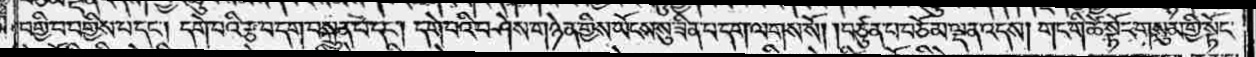བགྱི་བ་བགྱིས་པ་དང༌། དགེ་བའི་རྩ་བ་དག་བསྐྲུན་པ་དང༌། དགེ་བའི་བཤེས་གཉེན་གྱིས་ཡོངས་སུ་ཟིན་པ་དག་ལགས་སོ། །བཙུན་པ་བཅོམ་ལྡན་འདས། གང་གི་ཚེ་སྟོང་གསུམ་གྱི་སྟོང་
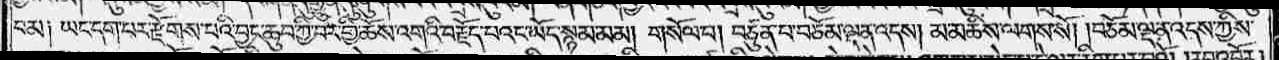བམ༑ ཡང་དག་པར་རྫོགས་པའི་བྱང་ཆུབ་ཀྱི་བར་གྱི་ཆོས་འགའི་བརྗོད་པའང་ཡོད་སྙམ་མམ། གསོལ་པ། བཙུན་པ་བཅོམ་ལྡན་འདས། མ་མཆིས་ལགས་སོ། །བཅོམ་ལྡན་འདས་ཀྱིས་
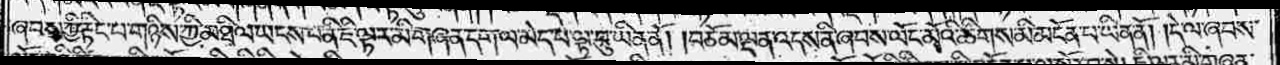ཞབས་ཀྱི་རྟིང་པ་གཉིས་ཀྱི་མཐིལ་ཡངས་པ་ནི་ཇི་ལྟར་མི་གཞན་དག་ལ་མེད་པ་ལྟ་བུ་ཡིན་ནོ། །བཅོམ་ལྡན་འདས་ནི་ཞབས་ལོང་མོའི་ཚིགས་མི་མངོན་པ་ཡིན་ནོ། །དེ་ལ་ཞབས་
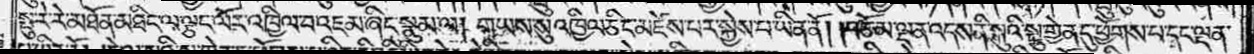སྤུ་རེ་རེ་མཐོན་མཐིང་ལ་ལྕང་ལོར་འཁྱིལ་བ་འཇམ་ཞིང་སྣུམ་ལ། གཡས་སུ་འཁྱིལ་ཅིང་མཛེས་པར་སྐྱེས་པ་ཡིན་ནོ། །བཅོམ་ལྡན་འདས་ནི་སྐུའི་སྤུ་གྱེན་དུ་ཕྱོགས་པ་དང་ལྡན་
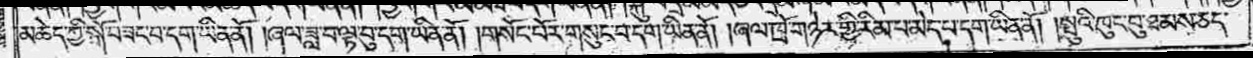མཆེད་ཀྱི་སྒོ་བཟང་བ་དག་ཡིན་ནོ། །ཞལ་ཟླ་བ་ལྟ་བུ་དག་ཡིན་ནོ། །གསོང་ཕོར་གསུང་བ་དག་ཡིན་ནོ། །ཞལ་ཁྲོ་གཉེར་གྱི་རིམ་པ་མད་པ་དག་ཡིན་ནོ། །སྤུའི་ཁུང་བུ་ཐམས་ཅད་
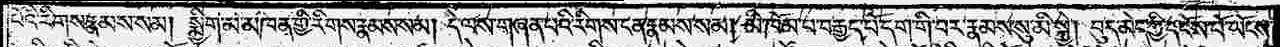པོའི་རིགས་རྣམས་སམ། སྨྱིག་མ་མཁན་གྱི་རིགས་རྣམས་སམ། དེ་ལས་གཞན་པའི་རིགས་ངན་རྣམས་སམ། མི་ཁོམ་པ་བརྒྱད་བོ་དག་གི་བར་རྣམས་སུ་མི་སྐྱེ། བུད་མེད་ཀྱི་དངོས་པོ་ཡོངས་
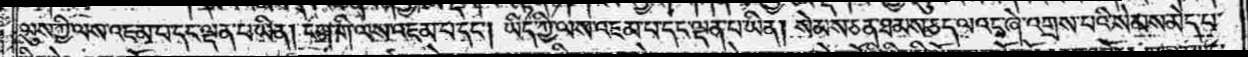ལུས་ཀྱི་ལས་འཇམ་པ་དང་ལྡན་པ་ཡིན། ངག་གི་ལས་འཇམ་པ་དང༌། ཡིད་ཀྱི་ལས་འཇམ་པ་དང་ལྡན་པ་ཡིན། སེམས་ཅན་ཐམས་ཅད་ལའང་ཞེ་འགྲས་པའི་སེམས་མེད་པ་
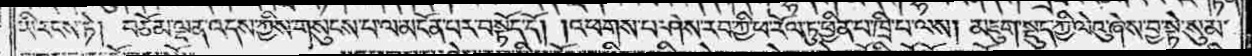ཡི་རངས་ཏེ། བཅོམ་ལྡན་འདས་ཀྱིས་གསུངས་པ་ལ་མངོན་པར་བསྟོད་དོ། །འཕགས་པ་ཤེས་རབ་ཀྱི་ཕ་རོལ་ཏུ་ཕྱིན་པ་ཁྲི་པ་ལས། མཇུག་སྡུད་ཀྱི་ལེའུ་ཞེས་བྱ་སྟེ་སུམ་
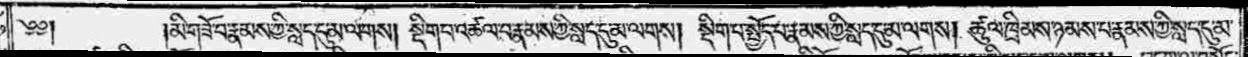༄༅༎མི་གཟོ་བ་རྣམས་ཀྱི་སླད་དུ་མ་ལགས། སྡིག་པ་འཚལ་བ་རྣམས་ཀྱི་སླད་དུ་མ་ལགས། སྡིག་པ་སྤྱོད་པ་རྣམས་ཀྱི་སླད་དུ་མ་ལགས། ཚུལ་ཁྲིམས་ཉམས་པ་རྣམས་ཀྱི་སླད་དུ་མ་
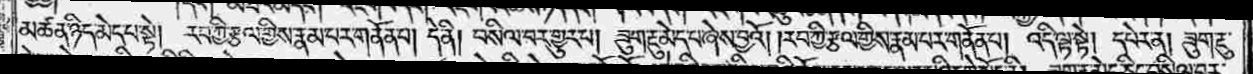མཚན་ཉིད་མེད་པ་སྟེ། རབ་ཀྱི་རྩལ་གྱིས་རྣམ་པར་གནོན་པ། དེ་ནི། བསིལ་བར་གྱུར་པ། ཟུག་རྔུ་མེད་པ་ཞེས་བྱའོ། །རབ་ཀྱི་རྩལ་གྱིས་རྣམ་པར་གནོན་པ། འདི་ལྟ་སྟེ། དཔེར་ན། ཟུག་རྔུ་
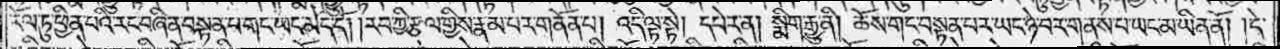རོལ་ཏུ་ཕྱིན་པའི་རང་བཞིན་བསྟན་པ་གང་ཡང་མེད་དོ། །རབ་ཀྱི་རྩལ་གྱིས་རྣམ་པར་གནོན་པ། འདི་ལྟ་སྟེ། དཔེར་ན། སྨིག་རྒྱུ་ནི། ཆོས་གང་བསྟན་པར་ཡང་ཉེ་བར་གནས་པ་ཡང་མ་ཡིན་ནོ། །དེ་
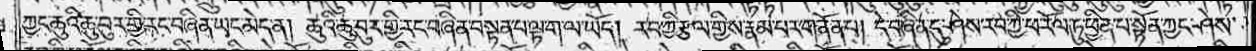ཀྱང་ཆུའི་ཆུ་བུར་གྱི་རང་བཞིན་ཡང་མེད་ན། ཆུའི་ཆུ་བུར་གྱི་རང་བཞིན་བསྟན་པ་ལྟ་ག་ལ་ཡོད། རབ་ཀྱི་རྩལ་གྱིས་རྣམ་པར་གནོན་པ། དེ་བཞིན་དུ་ཤེས་རབ་ཀྱི་ཕ་རོལ་ཏུ་ཕྱིན་པ་སྟོན་ཀྱང་ཤེས་
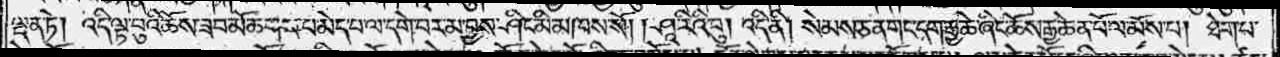ལྡན་ཏེ། འདི་ལྟ་བུའི་ཆོས་ཟབ་མོ་ཆགས་པ་མེད་པ་ལ་དགེ་བར་མ་བྱས་ཤིང་མི་མཁས་སོ། །ཤཱ་རིའི་བུ། འདི་ནི། སེམས་ཅན་གང་དག་རྒྱ་ཆེ་ཞིང་ཆོས་རྒྱ་ཆེན་པོ་ལ་མོས་པ། ཐེག་པ་
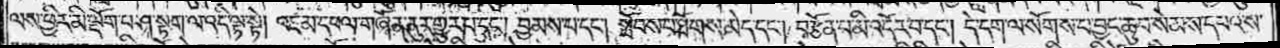ལས་ཕྱིར་མི་ལྡོག་པ་ཤ་སྟག་ལ་འདི་ལྟ་སྟེ། འཇམ་དཔལ་གཞོན་ནུར་གྱུར་པ་དང༌། བྱམས་པ་དང༌། སྤོབས་པ་ཐམས་ཅད་མེད་དང༌། བརྩོན་པ་མི་འདོར་བ་དང༌། དེ་དག་ལ་སོགས་པ་བྱང་ཆུབ་སེམས་དཔའ་ས་
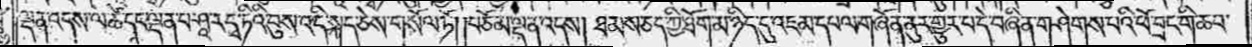ལྡན་འདས་ལ་ཚེ་དང་ལྡན་པ་ཤཱ་རདྭ་ཏིའི་བུས་འདི་སྐད་ཅེས་གསོལ་ཏོ། །བཅོམ་ལྡན་འདས། ཐམས་ཅད་ཀྱི་ཐོག་མ་ཉིད་དུ་འཇམ་དཔལ་གཞོན་ནུར་གྱུར་པ་དེ་བཞིན་གཤེགས་པའི་ཕོ་བྲང་གི་ཆབ་
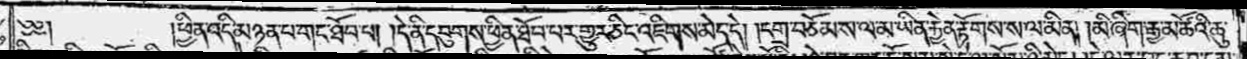༄༅༎ཕྱིན་འདི་མཉན་པ་གང་ཐོབ་པ། །དེ་ནི་དབུགས་ཕྱིན་ཐོབ་པར་གྱུར་ཅིང་འཇིགས་མེད་དེ། །དགྲ་བཅོམ་ས་ལ་མ་ཡིན་རྐྱེན་རྟོགས་ས་ལ་མིན། །མི་ཞིག་རྒྱ་མཚོའི་ཆུ་
